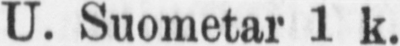U. Suometar 1 k.
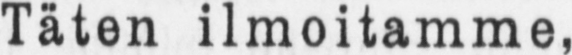Täten ilmoitamme,
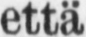että
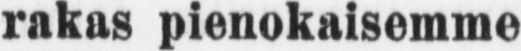rakas pienokaisemme
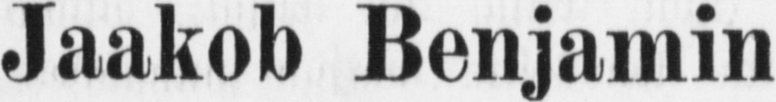Jaakob Benjamin
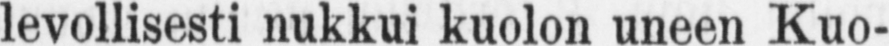levollisesti nukkui kuolon uneen Kuo-
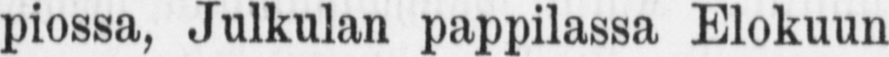piossa, Julkulan pappilassa Elokuun
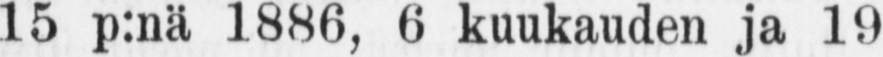15 p:nä 1886, 6 kuukauden ja 19
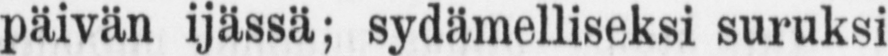päivän ijässä; sydämelliseksi suruksi
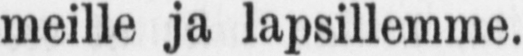meille ja lapsillemme.
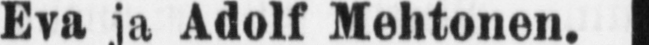Eva ja Adolf Mehtonen.
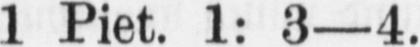1 Piet. 1: 3—4.
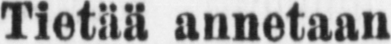Tietää annetaan
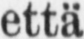että
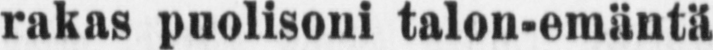rakas puolisoni talon-emäntä
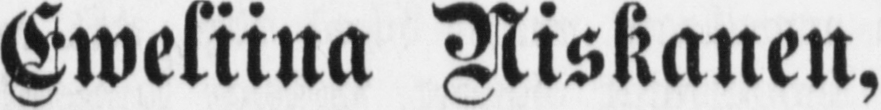Eweliina Niskanen,
